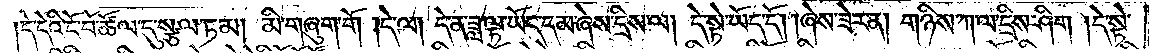དེ་དེའི་ངོ་བོ་ཚོལ་དུ་སྩལ་ཏམ། མི་གཞུག་གོ །དེ་ལ། དེ་ན་ཟླ་ལྟ་ཡོད་དམ་ཞེས་དྲིས་ལ། དེ་སྟེ་ཡོད་དོ། །ཞེས་ཟེར་ན། གཉིས་ཀ་ལ་དྲིས་ཤིག །དེ་སྟེ་
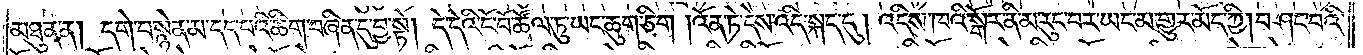མཐུན་ན། དགེ་བསྙེན་མ་དད་པའི་ཚིག་བཞིན་དུ་བྱ་སྟེ། དེ་དེའི་ངོ་བོ་ཚོལ་ཏུ་ཡང་ཆུག་ཅིག །འོན་ཏེ་དེས་འདི་སྐད་དུ། འདིས་ཁའི་སྒོར་ནི་མ་རུང་བར་ཡང་མ་གྱུར་མོད་ཀྱི། བཤང་བའི་
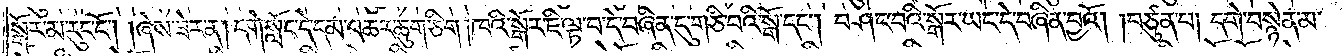སྒོར་མ་རུང་ངོ༌། །ཞེས་ཟེར་ན། དགེ་སློང་དེ་དམ་འཆར་ཆུག་ཅིག །ཁའི་སྒོར་ཇི་ལྟ་བ་དེ་བཞིན་དུ་གཅི་བའི་སྒོ་དང༌། བཤང་བའི་སྒོར་ཡང་དེ་བཞིན་བྱའོ། །བཙུན་པ། དགེ་བསྙེན་མ་
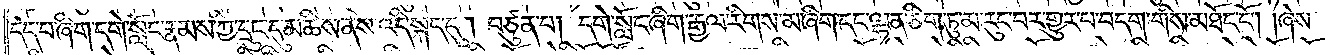དད་པ་ཞིག་དགེ་སློང་རྣམས་ཀྱི་དྲུང་དུ་མཆིས་ནས་འདི་སྐད་དུ། བཙུན་པ། དགེ་སློང་ཞིག་རྒྱལ་རིགས་མ་ཞིག་དང་ལྷན་ཅིག་ཏུ་མ་རུང་བར་གྱུར་པ་བདག་གིས་མཐོང་ངོ༌། །ཞེས་
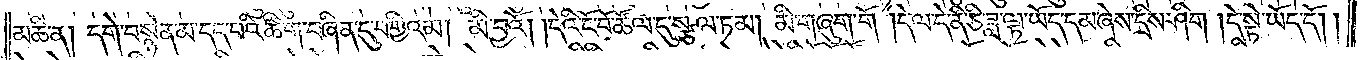མཆི་ན། དགེ་བསྙེན་མ་དད་པའི་ཚིག་བཞིན་དུ་བགྱིའམ། མི་བྱའོ། །དེའི་ངོ་བོ་ཚོལ་དུ་སྩལ་ཏམ། མི་གཞུག་གོ །དེ་ལ་དེ་ནི་ཅི་ཟླ་ལྟ་ཡོད་དམ་ཞེས་དྲིས་ཤིག །དེ་སྟེ་ཡོད་དོ།
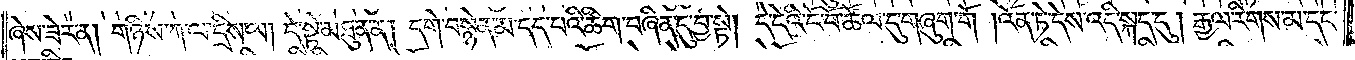ཞེས་ཟེར་ན། གཉིས་ཀ་ལ་དྲིས་ལ། དེ་སྟེ་མཐུན་ན། དགེ་བསྙེན་མ་དད་པའི་ཚིག་བཞིན་དུ་བྱ་སྟེ། དེ་དེའི་ངོ་བོ་ཚོལ་དུ་གཞུག་གོ །འོན་ཏེ་དེས་འདི་སྐད་དུ། རྒྱལ་རིགས་མ་དང་
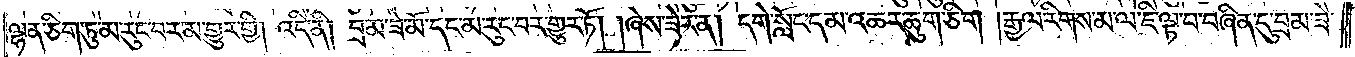ལྷན་ཅིག་ཏུ་མ་རུང་བར་མ་གྱུར་གྱི། འདི་ནི། བྲམ་ཟེ་མོ་དང་མ་རུང་བར་གྱུར་ཏོ། །ཞེས་ཟེར་ན། དགེ་སློང་དམ་འཆར་ཆུག་ཅིག །རྒྱལ་རིགས་མ་ལ་ཇི་ལྟ་བ་བཞིན་དུ་བྲམ་ཟེ་
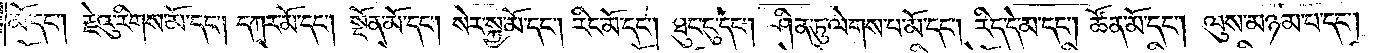མོ་དང༌། རྗེའུ་རིགས་མོ་དང༌། དཀར་མོ་དང༌། སྔོན་མོ་དང༌། སེར་སྐྱ་མོ་དང༌། རིང་མོ་དང༌། ཐུང་ངུ་དང༌། ཤིན་ཏུ་ལེགས་པ་མོ་དང༌། རིད་དེ་མ་དང༌། ཚོན་མོ་དང༌། ལུས་མཉམ་པ་དང༌།
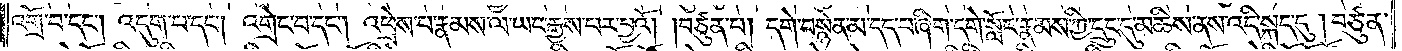འགྲོ་བ་དང༌། འདུག་པ་དང༌། འགྲེང་བ་དང༌། འཕྲེས་པ་རྣམས་ལ་ཡང་རྒྱས་པར་བྱའོ། །བཙུན་པ། དགེ་བསྙེན་མ་དད་པ་ཞིག་དགེ་སློང་རྣམས་ཀྱི་དྲུང་དུ་མཆིས་ནས་འདི་སྐད་དུ། བཙུན་
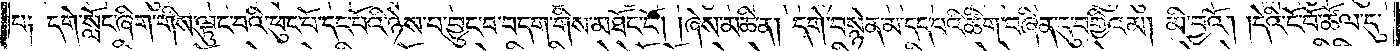པ༑ དགེ་སློང་ཞིག་གིས་ལྟུང་བའི་ཕུང་པོ་དང་པོའི་ཉེས་པ་བྱུང་བ་བདག་གིས་མཐོང་ངོ༌། །ཞེས་མཆི་ན། དགེ་བསྙེན་མ་དད་པའི་ཚིག་བཞིན་དུ་བགྱིའམ། མི་བྱའོ། །དེའི་ངོ་བོ་ཚོལ་དུ་
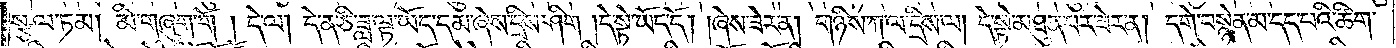སྩལ་ཏམ། མི་གཞུག་གོ །དེ་ལ། དེ་ན་ཅི་ཟླ་ལྟ་ཡོད་དམ་ཞེས་དྲིས་ཤིག །དེ་སྟེ་ཡོད་དོ། །ཞེས་ཟེར་ན། གཉིས་ཀ་ལ་དྲིས་ལ། དེ་སྟེ་མཐུན་པར་ཟེར་ན། དགེ་བསྙེན་མ་དད་པའི་ཚིག་
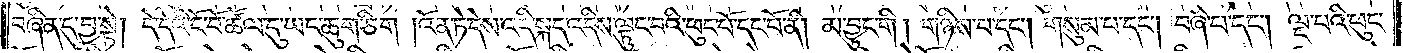བཞིན་དུ་བྱ་སྟེ། དེ་དེའི་ངོ་བོ་ཚོལ་དུ་ཡང་ཆུག་ཅིག །འོན་ཏེ་དེས་འདི་སྐད་འདིས་ལྟུང་བའི་ཕུང་པོ་དང་པོ་ནི། མ་བྱུང་གི། གཉིས་པ་དང༌། གསུམ་པ་དང༌། བཞི་པ་དང༌། ལྔ་པའི་ཕུང་
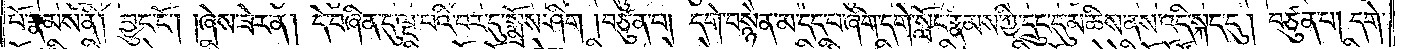པོ་རྣམས་ནི། བྱུང་ངོ༌། །ཞེས་ཟེར་ན། དེ་བཞིན་དུ་ལྔ་པའི་བར་དུ་སྨྲོས་ཤིག །བཙུན་པ། དགེ་བསྙེན་མ་དད་པ་ཞིག་དགེ་སློང་རྣམས་ཀྱི་དྲུང་དུ་མཆིས་ནས་འདི་སྐད་དུ། བཙུན་པ། དགེ་
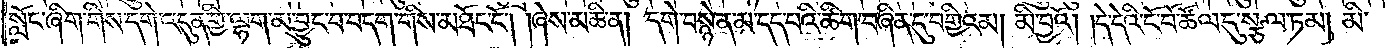སློང་ཞིག་གིས་དགེ་འདུན་གྱི་ལྷག་མ་བྱུང་བ་བདག་གིས་མཐོང་ངོ༌། །ཞེས་མཆི་ན། དགེ་བསྙེན་མ་དད་པའི་ཚིག་བཞིན་དུ་བགྱིའམ། མི་བྱའོ། །དེ་དེའི་ངོ་བོ་ཚོལ་དུ་སྩལ་ཏམ། མི་
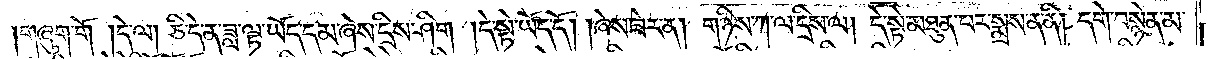།གཞུག་གོ །དེ་ལ། ཅི་དེ་ན་ཟླ་ལྟ་ཡོད་དམ་ཞེས་དྲིས་ཤིག །དེ་སྟེ་ཡོད་དོ། །ཞེས་ཟེར་ན། གཉིས་ཀ་ལ་དྲིས་ལ། དེ་སྟེ་མཐུན་པར་སྨྲས་ན་ནི། དགེ་བསྙེན་མ་
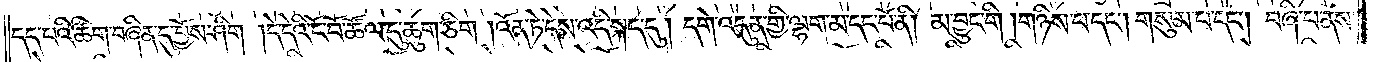དད་པའི་ཚིག་བཞིན་དུ་བྱོས་ཤིག །དེ་དེའི་ངོ་བོ་ཚོལ་དུ་ཆུག་ཅིག །འོན་ཏེ་དེས་འདི་སྐད་དུ། དགེ་འདུན་གྱི་ལྷག་མ་དང་པོ་ནི། མ་བྱུང་གི །གཉིས་པ་དང༌། གསུམ་པ་དང༌། བཞི་པ་ནས་
